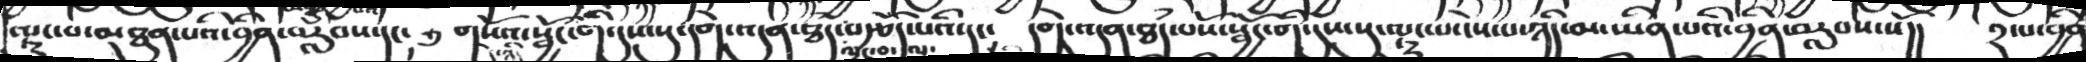ལྟུང་པ་མཐུན་པའི་བྱིན་བརླབས་དང་།   གསོའ་སྦྱོང་གི་དུས་སུ་དགེ་འདུན་ཐཾད་བརྩོད་པའི་དང་  དགེ་འདུན་ཐཾད་བསོ་སྦྱོང་གི་དུས་སུ་ལྟུང་པ་ངེས་པ་ཉིད་མ་ཡིན་པའི་བྱིན་བརླབས་སོ།། ༢་པ་བྱིན
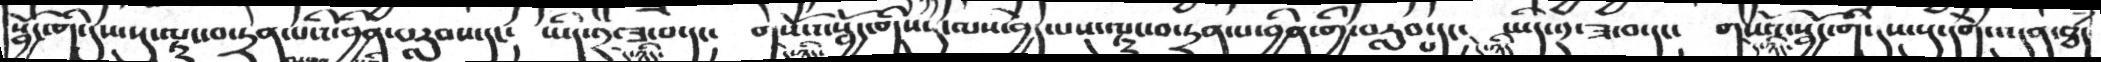སྦྱོང་གི་དུས་སུ་ལྟུང་བ་དྲན་པའི་བྱིན་བརླབས་དང༴   ཡིད་༢་ཟ་བ་དང༴  གསོའ་སྦྱོང་གིས་དུ་མས་བྱེད་པས་ལྟུང་བ་དྲན་པ་བྱིན་གྱི་བརླབ་པ་དང༴  ཡིད་༢་ཟ་བ་དང༴  གསོའ་སྦྱོང་གི་དུས་སུ་དགེ་འདུན་ཐཾད
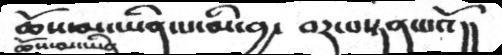ཆོས་མ་ཡིན་པ་མི་བྱ་  བར་པ་བསྟན་པའོ།།
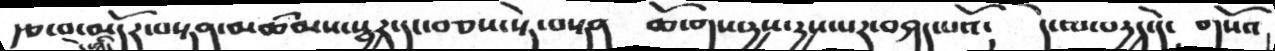རྩ་བ་མདོར་བསྟན་མཚམས་སྦྱར་དང་བཅས་སྟེ་བསྟན  ཆོ་གས་དྱས་དྱས་པར་བཤད་པའོ།  དེ་ལ་བདྱད་དེ་  གསོའ
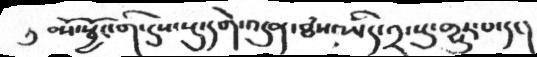བསོ་སྦྱོང་གི་དུས་སུ་དགེ་འདུན་ཐཾད་འདི་༢་སུ་གྱུར་པ་དང།
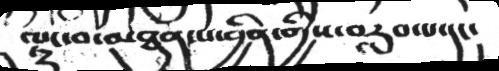ལྟུང་མཐུན་པ་བྱིན་གྱིས་བརླབ་པ་དང།
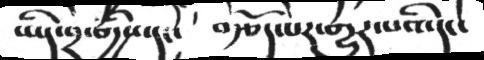ཡིད་༢་གྱིས་དང་   བརྩོད་པར་གྱུར་པའི་དང་
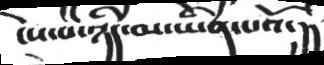ངེས་པ་ཉིད་མ་ཡིན་པའོ་།།
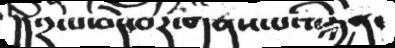།།༢་པ་བདེ་བར་གནས་པའི་རྐྱེན་
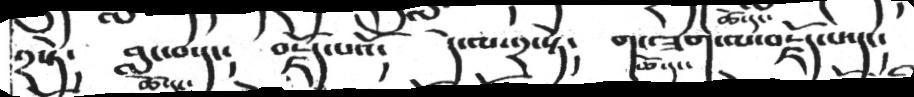༢་ཏེ༴  བླ་བ་དང༴  བརྗོད་པའོ༴   དེ་ལ་༢་སྟེ༴  གང་ཟག་ལ་བརྗོད་པ་དང༴
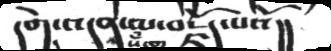དགེ་འདུན་ལ་བརྗོད་པའོ།།
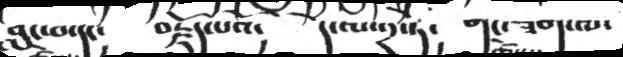བླང་བ་དང།   བརྗོད་པའོ།   དེ་ལ་༢་ཏེ།  གང་ཟག་ལ་
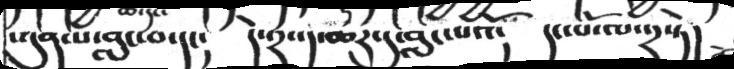སདུན་པ་བླ་བ་དང༴  དེ་༢་༡་ཆར་དུ་བླང་པའོ༴   དང་པོ་ལ་༢་ཏེ།
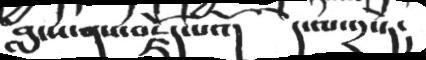བླ་ས་ནས་བརྗོད་པའོ།  དེ་ལ་༢་ཏེ།
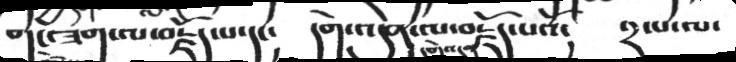གང་ཟག་ལ་བརྗོད་པ་དང༴   དགེ་འདུན་ལ་བརྗོད་པའོ༴  ༢་པ་ལ་
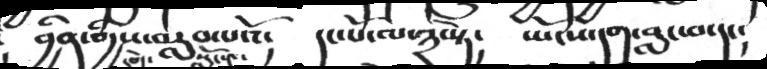བྱིན་གྱིས་བརླབ་པའོ༴   དང་པོ་ལ་༣་སྟེ༴  དང་པོ་ལ་༣་སྟེ༴   ཡོངས་དང་བླང་བ་དང༴
